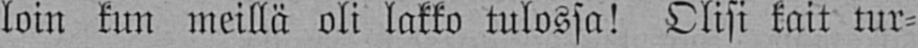loin kun meillä oli lakko tulossa! Olisi kait tur-
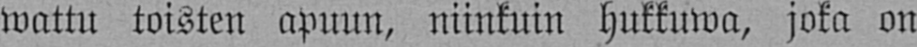watta toisten apuun, niinkuin hukkuwa, joka on
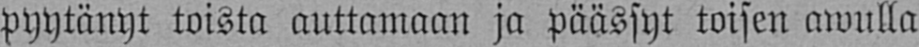pyytänyt toista auttamaan ja päässyt toisen awulla
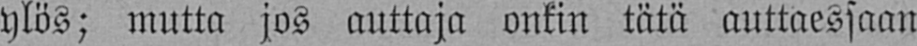ylös; mutta jos auttaja onkin tätä auttaessaan
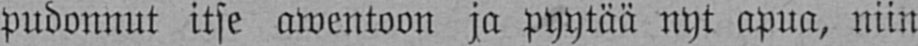pudonnut itse awentoon ja pyytää nyt apua, niin
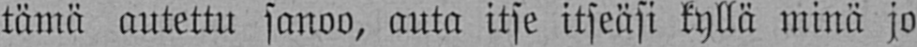tämä autettu sanoo, auta itse itseäsi kyllä minä jo
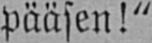pääsen!"
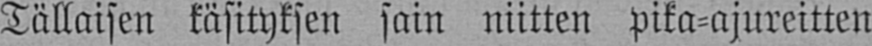Tällaisen käsityksen sain niitten pika-ajureitten
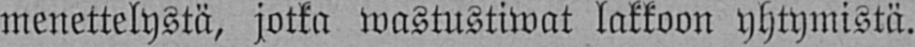menettelystä, jotka wastustiwat lakkoon yhtymistä.
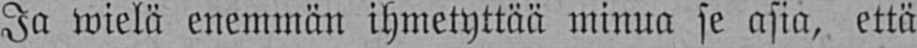Ja wielä enemmän ihmetyttää minua se asia, että
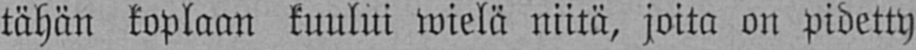tähän koplaan kuului wielä niitä, joita on pidetty
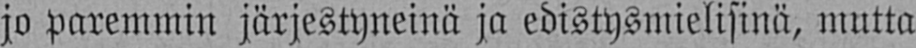jo paremmin järjestyneinä ja edistysmielisinä, mutta
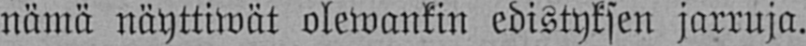nämä näyttiwät olewankin edistyksen jarruja.
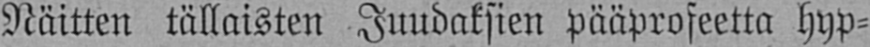Näitten tällaisten Juudaksien pääprofeetta hyp-
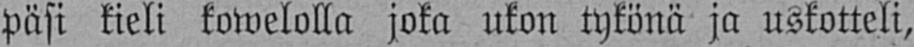päsi kieli kowelolla joka ukon tykönä ja uskotteli,
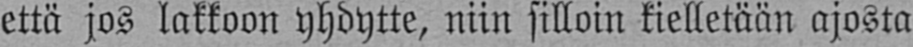että jos lakkoon yhdytte, niin silloin kielletään ajosta
